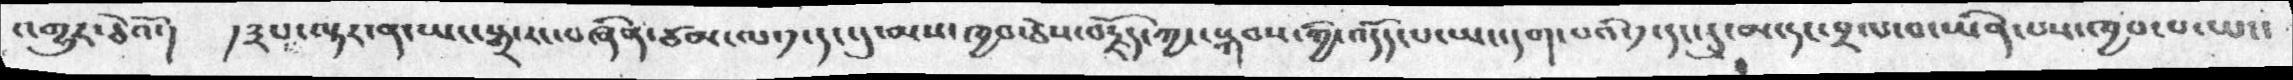འགྱུར་ཅེའོ་།  །༣པ་ལྟར་ན་ཡང་སྒྲ་རང་བཞིན་ཙམ་ལ་༡་དང་དུ་མས་ཁྱབ་ཅེས་བརྗོད་ཀྱང་སྐབས་ཀྱི་འདོད་པ་ཡང་དག་པའི་༡དང་དུ་མ་དང་བྲལ་བ་ཡིན་པས་ཁྱབ་པ་ཡང་
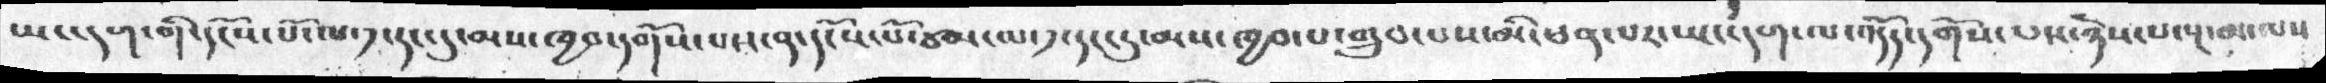ཡང་དག་གི་དངོས་པོ་ལ་༡་དང་དུ་མས་ཁྱབ་དགོས་པས་ན་དངོས་པོ་ཙམ་ལ་༡་དང་དུ་མས་ཁྱབ་པ་གྲུབ་པས་མི་ཕན་པར་ཡང་དག་ལ་འདོད་དགོས་པས་ཉེས་པ་སྔ་མ་ལས
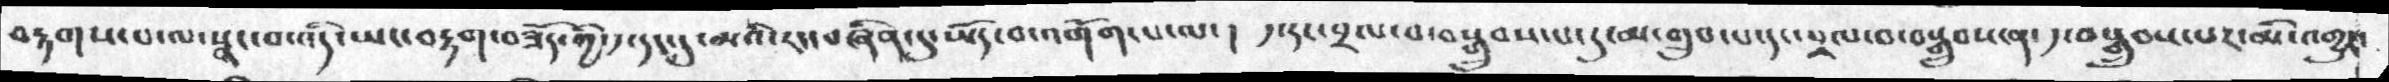བརྟགས་པ་ལ་སྣང་བ་འདི་ཡང་བརྟག་བཟོད་ཀྱི་༡་དང་དུ་མའི་རང་བཞིན་དུ་ཡོད་བ་འགོག་པ་ལ་།  ༡་དང་བྲལ་བ་བསྒྲུབས་པ་དུ་མ་གྲུབ་པ་དང་བྲལ་བ་བསྒྲུབས་ན་༡་བསྒྲུབས་པར་མི་འགྱུར་
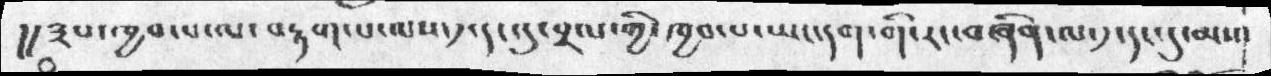།།༣པ་ཁྱབ་པ་ལ་བརྟག་པ་ལས་༡་དང་དུ་བྲལ་ཀྱི་ཁྱབ་པ་ཡང་དག་གི་རང་བཞིན་ལ་༡་དང་དུ་མས་
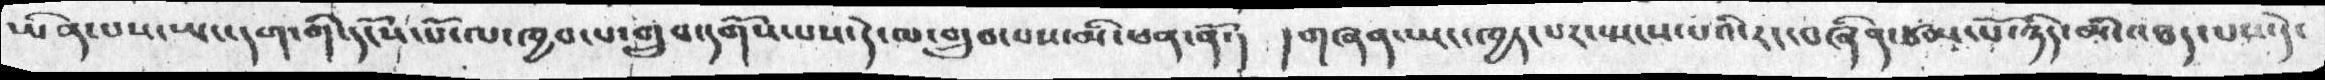ཡིན་པས་ཡང་དག་གོ་དངོས་པོ་ལ་ཁྱབ་པ་གྲུབ་དགོས་པས་དེ་ལ་གྲུབ་པས་མི་ཕན་ནོ་།  །གཞན་ཡང་ཁྱད་པར་སྤངས་པའི་རང་བཞིན་ཙམ་པོ་ཉིད་མི་འཐད་པས་དེ་
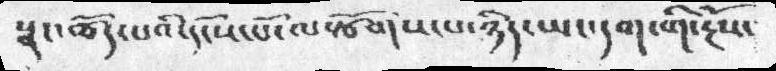སྣང་ཚོད་པའི་དངོས་པོ་ལསྩོགས་པ་ཉིད་ཡང་དག་གི་རྔོས་
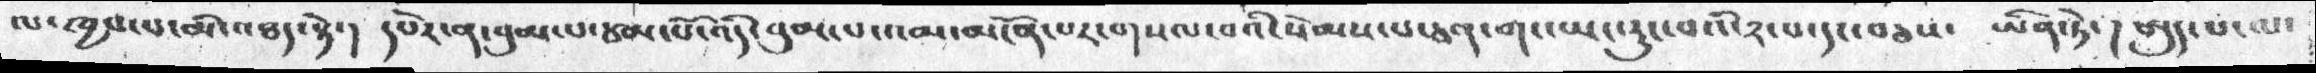ལ་ཁྱབ་པ་མི་འཐད་སྟེ་།  དཔེར་ན་བུམ་པ་ཙམ་པོ་འདི་བུམ་པ་འམ་མངོན་པར་གསལ་བའི་སེམས་པ་ཅན་གང་ཡང་རུང་བའི་༢་པ་དང་བཅས་  ཡིན་ཏེ་། ཨུད་པ་ལ་
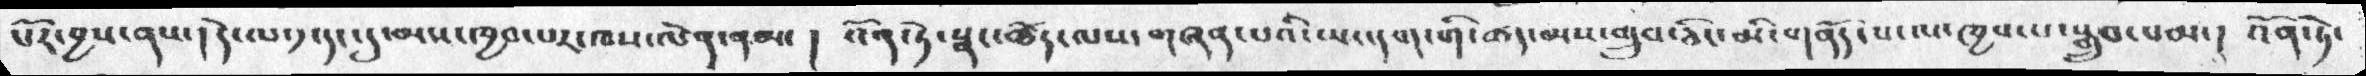པོར་བྱས་ནས་། དེ་ལ་༡་དང་དུ་མས་ཁྱབ་པར་ཁས་ལེན་ནམ་།  འོན་ཏེ་སྣང་ཚོད་ལས་གཞན་པའི་ཡང་དག་གི་ཚད་ནས་གྲུབ་ཅིང་མི་གནོད་པ་ལ་ཁྱབ་པ་སྒྲུབ་བམ་། འོན་ཏེ་
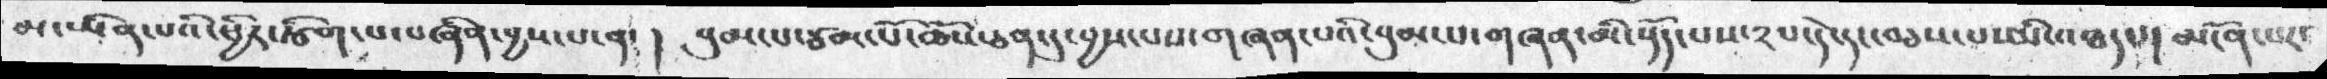མ་ཡིན་པའི་ཕྱིར་རྩིག་པ་བཞིན་བྱས་པ་ན་། བུམ་པ་ཙམ་པོ་ཆོས་ཅན་དུ་བྱས་པས་གཞན་པའི་བུམ་པ་གཞན་མི་འདོད་པས་༢པ་དེ་དང་བཅས་པ་མི་འཐད་། མངོན་པར་
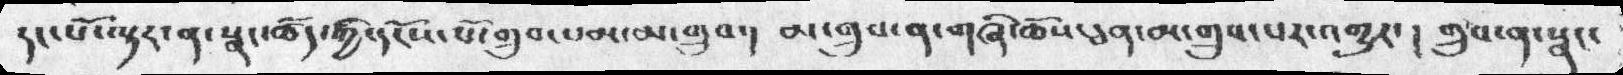དང་པོ་ལྟར་ན་སྣང་ཚོད་ཀྱི་དངོས་པོ་གྲུབ་པམ་མ་གྲུབ་།  མ་གྲུབ་ན་གཞི་ཆོས་ཅན་མ་གྲུབ་པར་འགྱུར་། གྲུབ་ན་སྣང་
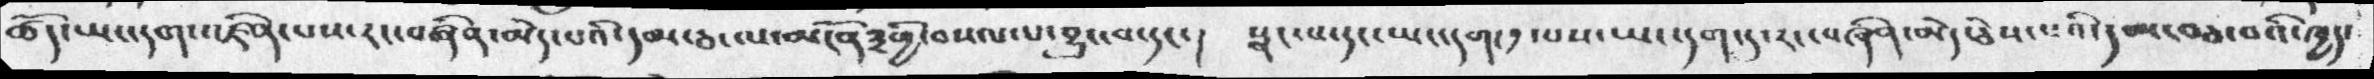ཚོད་ཡང་དག་འཛིན་པས་རང་བཞིན་མེད་པའི་དམ་ཅ་ལ་མངོན༣གྱི་བསལ་པ་བྱུང་བ་དང་།  སྣང་པ་དང་ཡང་དག་༡་པས་ཡང་དག་དུ་རང་བཞིན་མེད་ཅེས་པའི་དམ་བཅ་བའི་ཁྱད་
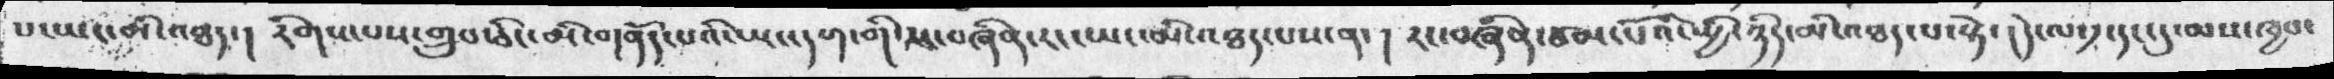པ་ཡང་མི་འཐད་། རིགས་པས་གྲུབ་ཅིང་མི་གནོད་པའི་ཡང་དག་གི་རང་བཞིན་རང་ཡང་མི་འཐད་པས་ན་། རང་བཞིན་ཙམ་པོའི་སྤྱི་ཉིད་མི་འཐད་པ་སྟེ་། དེ་ལ་༡་དང་དུ་མས་ཁྱབ་
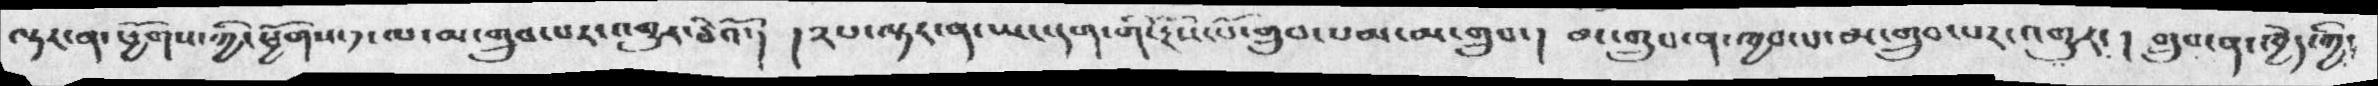ལྟར་ན་ཕྱོགས་ཀྱི་ཕྱོགས་༡་ལ་མ་གྲུབ་པར་འགྱུར་ཅེའོ་། །༢པ་ལྟར་ན་ཡང་དག་གི་རྔོས་པོ་གྲུབ་པམ་མ་གྲུབ་།  མ་གྲུབ་ན་ཁྱབ་པ་མ་གྲུབ་པར་འགྱུར་།  གྲུབ་ན་ཁྱེད་ཀྱི་
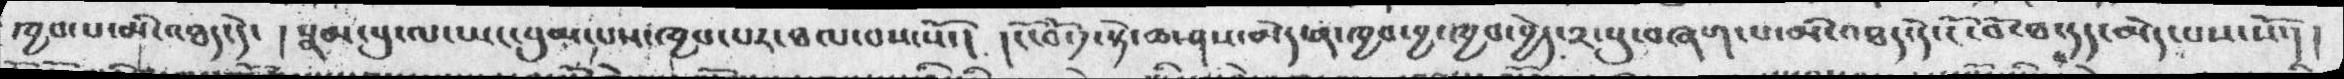ཁྱབ་པ་མི་འཐད་དེ་  ། སྣམ་བུ་ལ་ཡང་བུམ་པས་ཁྱབ་པར་ཐལ་བས་སོ་།  །ངོ་བ་༡་སྟེ་ཆ་ཤས་མེད་ན་ཁྱབ་བྱ་ཁྱབ་བྱེད་༢་སུ་བཞག་པ་མི་འཐད་དེ་ངོ་བོ་ཐ་དད་མེད་པས་སོ་། །
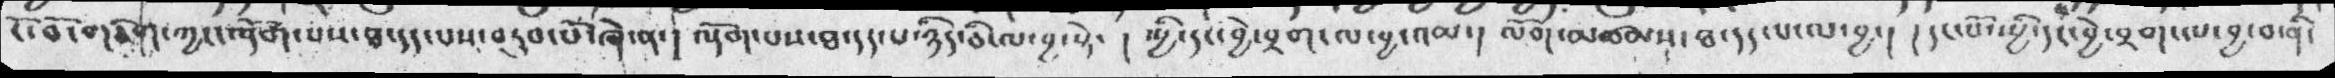ངོ་བོ་གཅིག་ཀྱང་ལྡོག་པས་ཐ་དད་པས་བཏུབ་པོ་ཞེ་ན་།  ལྡོག་པས་ཐ་དད་པ་ཉིད་ཅི་ལ་བྱ་སྟེ་། སྤྱི་དང་བྱེ་བྲག་ལ་བྱ་འམ་། ལོག་མཚམས་ཐ་དད་པ་ལ་བྱ་།  །དང་པོ་སྤྱི་དང་བྱེ་བྲག་ལ་བྱ་བ་ནི་
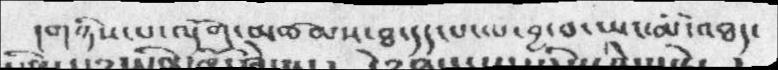།གཉིས་པ་ལྡོག་མཚམས་ཐ་དད་པ་ལ་བྱ་བ་ཡང་མི་འཐད་
